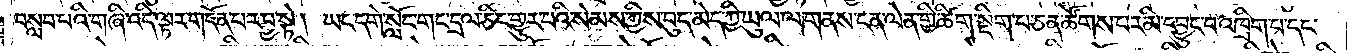བསླབ་པའི་གཞི་འདི་ལྟར་གདོན་པར་བྱ་སྟེ། ཡང་དགེ་སློང་གང་དྲལ་ཅིང་གྱུར་པའི་སེམས་ཀྱིས་བུད་མེད་ཀྱི་ཡུལ་ལ་གནས་ངན་ལེན་གྱི་ཚིག་སྡིག་པ་ཅན་ཚོགས་པར་མི་དབྱུང་བ་འཁྲིག་པ་དང་
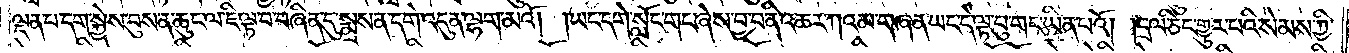ལྡན་པ་དག་སྐྱེས་བུས་ན་ཆུང་ལ་ཇི་ལྟ་བ་བཞིན་དུ་སྨྲས་ན་དགེ་འདུན་ལྷག་མའོ། །ཡང་དགེ་སློང་གང་ཞེས་བྱ་བ་ནི་འཆར་ཀའམ་གཞན་ཡང་དེ་ལྟ་བུ་གང་ཡིན་པའོ། །དྲལ་ཅིང་གྱུར་པའི་སེམས་ཀྱི་
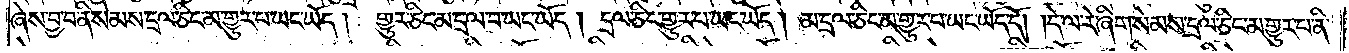ཞེས་བྱ་བ་ནི་སེམས་དྲལ་ཅིང་མ་གྱུར་པ་ཡང་ཡོད། གྱུར་ཅིང་མ་དྲལ་བ་ཡང་ཡོད། དྲལ་ཅིང་གྱུར་པ་ཡང་ཡོད། མ་དྲལ་ཅིང་མ་གྱུར་པ་ཡང་ཡོད་དོ། །དེ་ལ་རེ་ཞིག་སེམས་དྲལ་ཅིང་མ་གྱུར་པ་ནི་
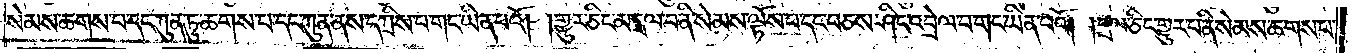སེམས་ཆགས་པ་དང་ཀུན་ཏུ་ཆགས་པ་དང་ཀུན་ནས་དཀྲིས་པ་གང་ཡིན་པའོ། །གྱུར་ཅིང་མ་དྲལ་བ་ནི་སེམས་ལྟོས་པ་དང་བཅས་ཤིང་འབྲེལ་བ་གང་ཡིན་པའོ། །དྲལ་ཅིང་གྱུར་པ་ནི་སེམས་ཆགས་པ་
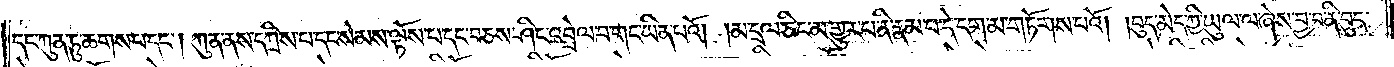དང་ཀུན་ཏུ་ཆགས་པ་དང༌། ཀུན་ནས་དཀྲིས་པ་དང་སེམས་ལྟོས་པ་དང་བཅས་ཤིང་འབྲེལ་བ་གང་ཡིན་པའོ། །མ་དྲལ་ཅིང་མ་གྱུར་པ་ནི་རྣམ་པ་དེ་དག་མ་གཏོགས་པའོ། །བུད་མེད་ཀྱི་ཡུལ་ལ་ཞེས་བྱ་བ་ནི་བུད་
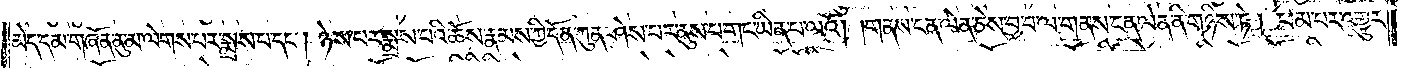མེད་དམ་གཞོན་ནུ་མ་ལེགས་པར་སྨྲས་པ་དང༌། ཉེས་པར་སྨྲས་པའི་ཆོས་རྣམས་ཀྱི་དོན་ཀུན་ཤེས་པར་ནུས་པ་གང་ཡིན་པ་ལའོ། །གནས་ངན་ལེན་ཅེས་བྱ་བ་ལ་གནས་ངན་ལེན་ནི་གཉིས་ཏེ། ཕམ་པར་འགྱུར་
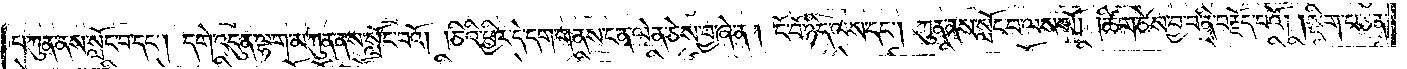བ་ཀུན་ནས་སློང་བ་དང༌། དགེ་འདུན་ལྷག་མ་ཀུན་ནས་སློང་བའོ། །ཅིའི་ཕྱིར་དེ་དག་གནས་ངན་ལེན་ཅེས་བྱ་ཞེ་ན། ངོ་བོ་ཉིད་ལས་དང༌། ཀུན་ནས་སློང་བ་ལས་སོ། །ཚིག་ཅེས་བྱ་བ་ནི་བརྗོད་པའོ། །སྡིག་པ་ཅན་
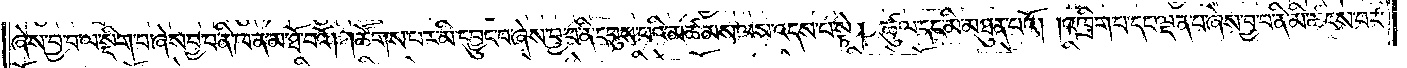ཞེས་བྱ་བ་ལ་སྡིག་པ་ཞེས་བྱ་བ་ནི་ཁ་ན་མ་ཐོ་བའོ། །ཚོགས་པར་མི་དབྱུང་བ་ཞེས་བྱ་བ་ནི་དབུས་པའི་མཚམས་ལས་འདས་པ་སྟེ། ཚུལ་དང་མི་མཐུན་པའོ། །འཁྲིག་པ་དང་ལྡན་པ་ཞེས་བྱ་བ་ནི་མི་ཚངས་པར་
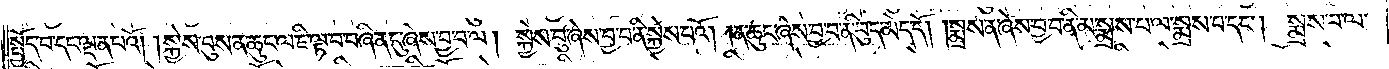སྤྱོད་པ་དང་ལྡན་པའོ། །སྐྱེས་བུས་ན་ཆུང་ལ་ཇི་ལྟ་བ་བཞིན་དུ་ཞེས་བྱ་བ་ལ། སྐྱེས་བུ་ཞེས་བྱ་བ་ནི་སྐྱེས་པའོ། །ན་ཆུང་ཞེས་བྱ་བ་ནི་བུད་མེད་དོ། །སྨྲས་ན་ཞེས་བྱ་བ་ནི་མ་སྨྲས་པ་ལ་སྨྲས་པ་དང༌། སྨྲས་པ་ལ་
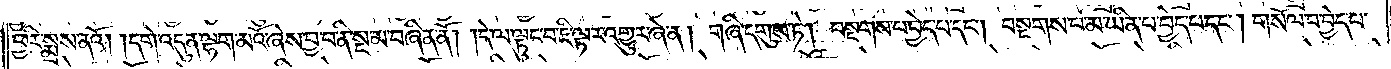ཕྱིར་སྨྲས་ནའོ། །དགེ་འདུན་ལྷག་མའོ་ཞེས་བྱ་བ་ནི་སྔ་མ་བཞིན་ནོ། །དེ་ལ་ལྟུང་བ་ཇི་ལྟར་འགྱུར་ཞེ་ན། གཞི་དགུས་ཏེ། བསྔགས་པ་བྱེད་པ་དང༌། བསྔགས་པ་མ་ཡིན་པ་བྱེད་པ་དང༌། གསོལ་བ་བྱེད་པ་
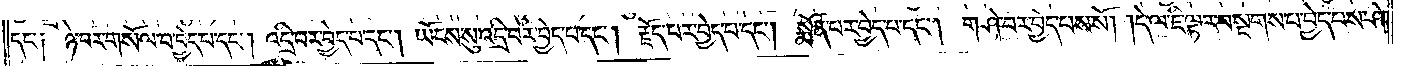དང༌། ཉེ་བར་གསོལ་བ་བྱེད་པ་དང༌། འདྲི་བར་བྱེད་པ་དང༌། ཡོངས་སུ་འདྲི་བར་བྱེད་པ་དང༌། རྗོད་པར་བྱེད་པ་དང༌། སྨོན་པར་བྱེད་པ་དང༌། གཤེ་བར་བྱེད་པས་སོ། དེ་ལ་ཇི་ལྟར་བསྔགས་པ་བྱེད་པས་ཤེ་
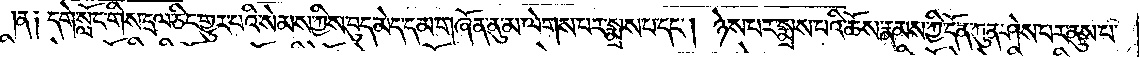།ན༑ དགེ་སློང་གིས་དྲལ་ཅིང་གྱུར་པའི་སེམས་ཀྱིས་བུད་མེད་དམ་གཞོན་ནུ་མ་ལེགས་པར་སྨྲས་པ་དང༌། ཉེས་པར་སྨྲས་པའི་ཆོས་རྣམས་ཀྱི་དོན་ཀུན་ཤེས་པར་ནུས་པ་
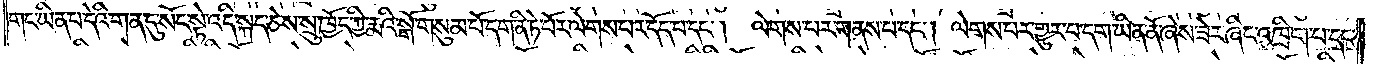གང་ཡིན་པ་དེའི་གན་དུ་སོང་སྟེ་འདི་སྐད་ཅེས་སྲུ་ཁྱོད་ཀྱི་རྨའི་སྒོ་གསུམ་པོ་དག་ནི་ཏེ་པོར་ལེགས་པར་དོད་པ་དང༌། ལེགས་པར་གནས་པ་དང༌། ལེགས་པར་གྱུར་པ་དག་ཡིན་ནོ་ཞེས་ཟེར་ཞིང་འཁྲིག་པ་དང་
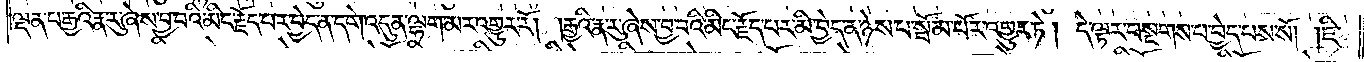ལྡན་པ་རྒྱའི་རྣ་རུ་ཞེས་བྱ་བའི་མིང་རྗོད་པར་བྱེད་ན་དགེ་འདུན་ལྷག་མར་འགྱུར་རོ། །རྒྱའི་རྣ་རུ་ཞེས་བྱ་བའི་མིང་རྗོད་པར་མི་བྱེད་ན་ཉེས་པ་སྦོམ་པོར་འགྱུར་ཏེ། དེ་ལྟར་བསྔགས་པ་བྱེད་པས་སོ། །ཇི་
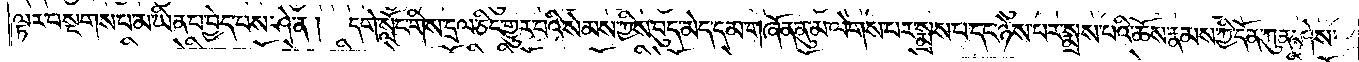ལྟར་བསྔགས་པ་མ་ཡིན་པ་བྱེད་པས་ཤེ་ན། དགེ་སློང་གིས་དྲལ་ཅིང་གྱུར་པའི་སེམས་ཀྱིས་བུད་མེད་དམ་གཞོན་ནུ་མ་ལེགས་པར་སྨྲས་པ་དང་ཉེས་པ་སྨྲས་པའི་ཆོས་རྣམས་ཀྱི་དོན་ཀུན་ཤེས་
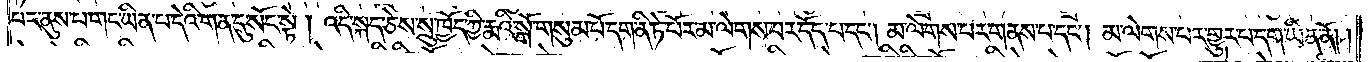པར་ནུས་པ་གང་ཡིན་པ་དེའི་གན་དུ་སོང་སྟེ། འདི་སྐད་ཅེས་སྲུ་ཁྱོད་ཀྱི་རྨའི་སྒོ་གསུམ་པོ་དག་ནི་ཏེ་པོར་མ་ལེགས་པར་དོད་པ་དང༌། མ་ལེགས་པར་གནས་པ་དང༌། མ་ལེགས་པར་གྱུར་པ་དག་ཡིན་ནོ། །
